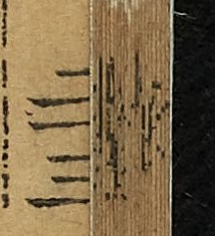二十三
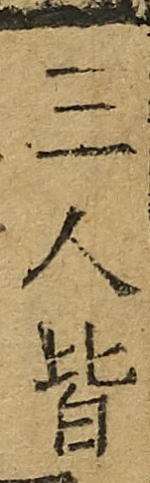三人皆
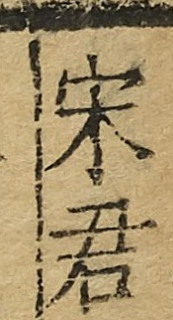宋君
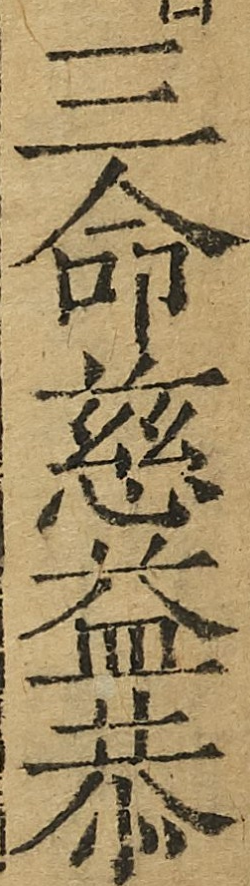三命慈益恭
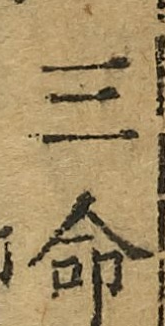三命
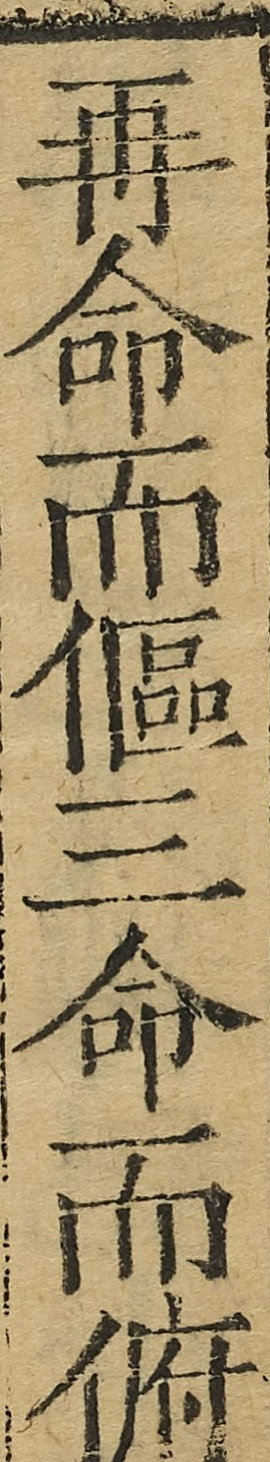再命而傴三命而俯
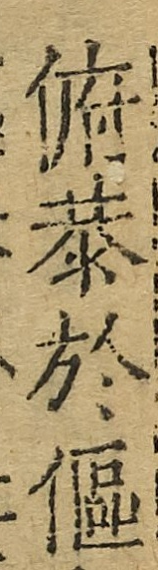俯恭於傴
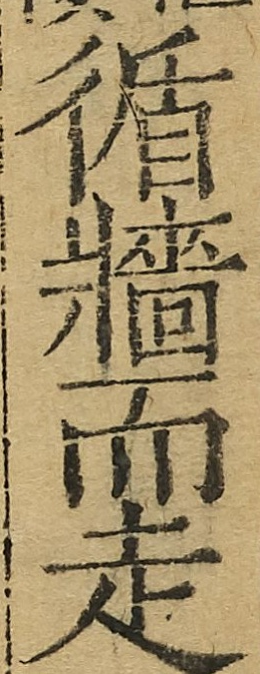循牆而走
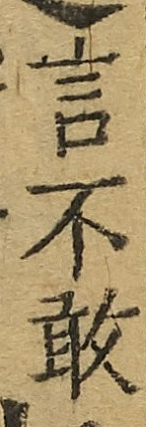言不敢
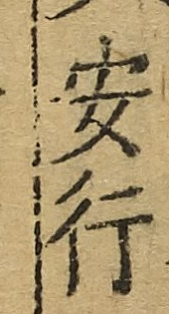安行
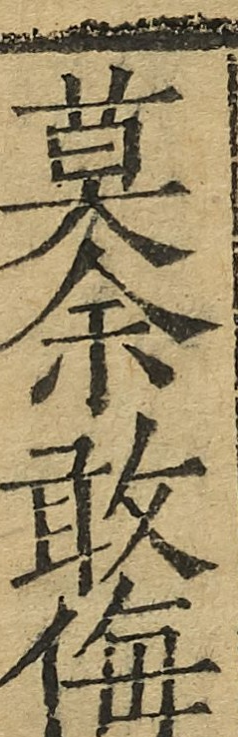莫余敢侮
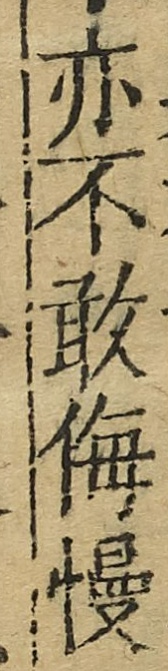亦不敢侮慢
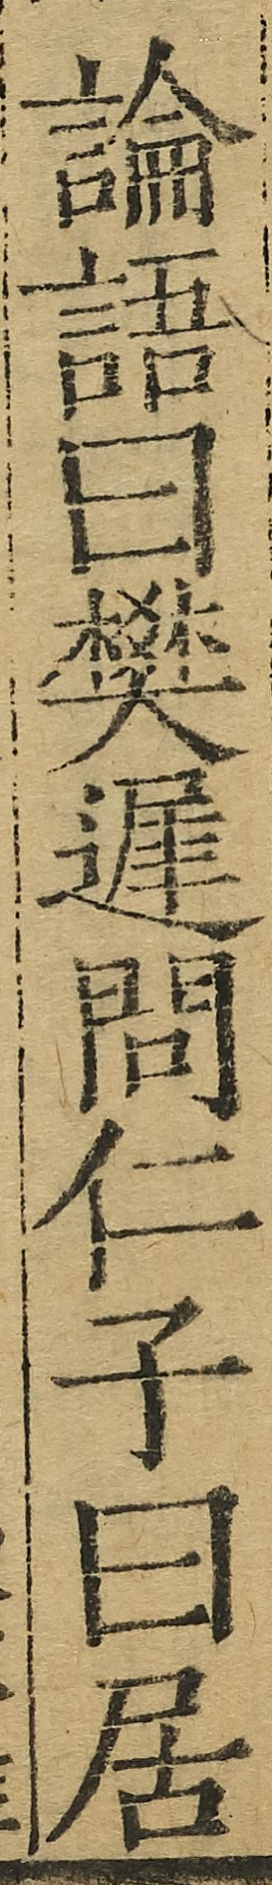論語曰樊遲問仁子曰居
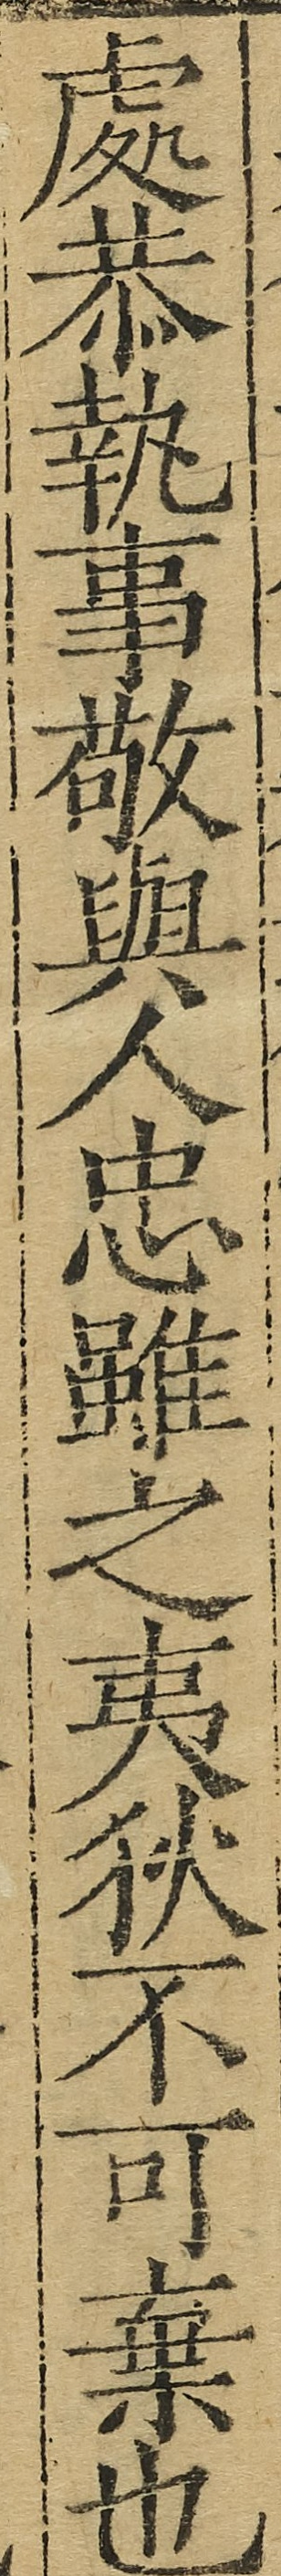處恭執事敬與有忠雖之夷狄不可棄也
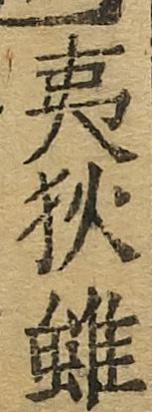夷狄雖
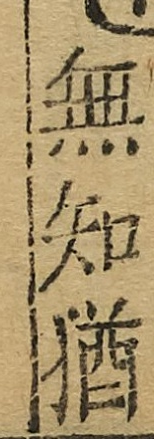無知猶
